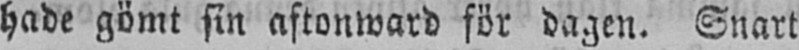hade gömt sin aftonward för dagen. Snart
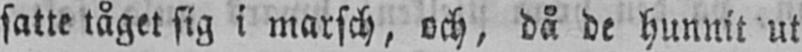satte tåget sig i marsch, och, då de hunnit ut
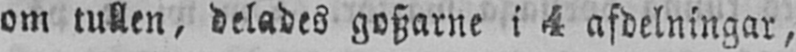om tullen, delades goszarne i 4 afdelningar,
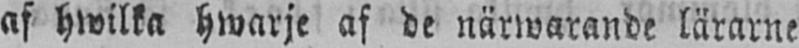af hwilka hwarje af de närwarande lärarne
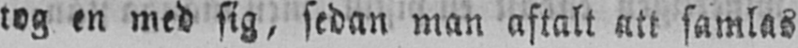tog en med sig, sedan man aftalt att samlas
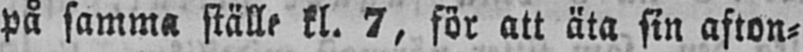på samma ställe kl. 7, för att äta sin afton-
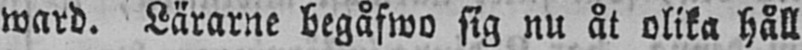ward. Lärarne begåfwo sig nu åt olika håll
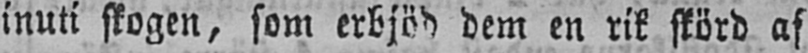inuti skogen, som erbjöd dem en rik skörd af
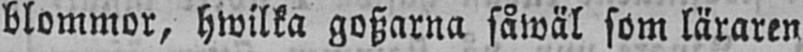blommor, hwilka goszarna såwäl som läraren
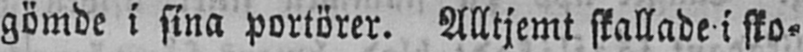gömde i sina portörer. Alltjemt skallade i sko-
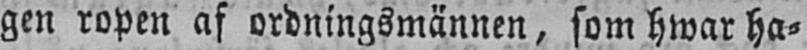gen ropen af ordningsmännen, som hwar ha-
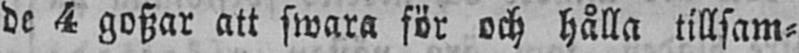de 4 goszar att swara för och hålla tillsam-
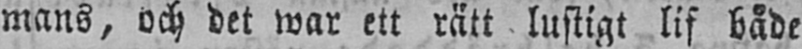mans, och det war ett rätt lustigt lif både
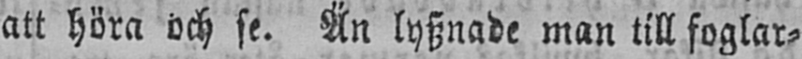att höra och se. Än lysznade man till foglar-
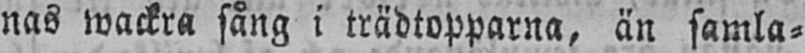nas wackra sång i trädtopparna, än samla-
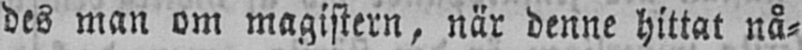des man om magistern, när denne hittat nå-
